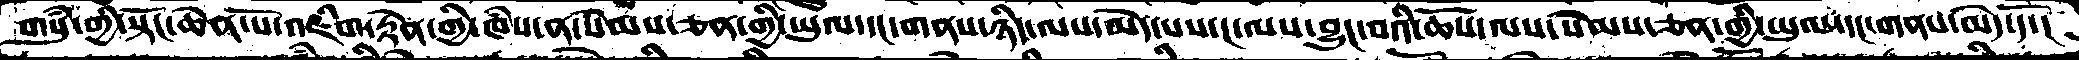གསུཾ་གྱི་སྟོང་ཆེན་པོ་འཇིག་རྟེན་གྱི་ཁཾས་ན་སེམས་ཅན་གྱི་ཡུལ་དང་གནས་ཉིད་ལས་མེད་པས་ང་ལས་བྱུང་བའི་ཆོས་ལས་སེམས་ཅན་གྱི་ཡུལ་དང་གནས་མེད་དོ་།
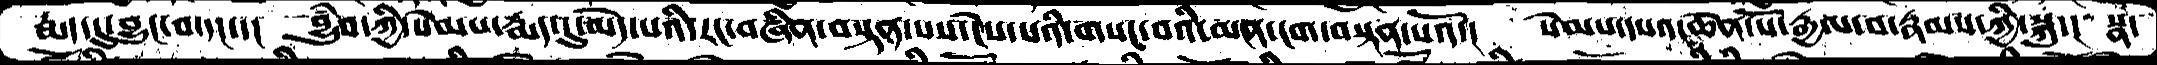རྨད་དུ་བྱུང་བ་དང་།  བྱུཾབ་ཀྱི་སེམས་རྨད་དུ་མེད་པའི་རང་བཞིན་བསྟན་པས་ངེས་པའི་གསང་བའི་མན་ངག་བསྟན་པའོ་།  སེམས་དཔའ་ཆེན་པོ་རྒྱལ་བ་རྣམས་ཀྱི་སྐུ་།  སྣ་
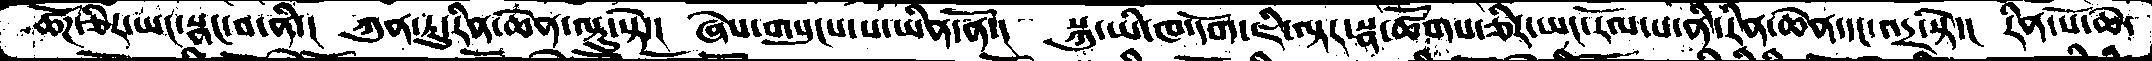ཚོཌ་ཅིར་ཡང་སྣང་བ་ནི་།  ཀུན་ཏུ་རིན་ཆེན་ལྟུ་སྟེ་།  ཞེས་གསུངས་པ་ཡིན་ནོ་།  སྐུ་ཡི་ཁ་དོག་ཇི་ལྟར་སྣ་ཚོགས་ཅིར་ཡང་རོལ་པ་ནི་རིན་ཆེན་དང་འདྲ་སྟེ་།  རིན་པོ་ཆེ་
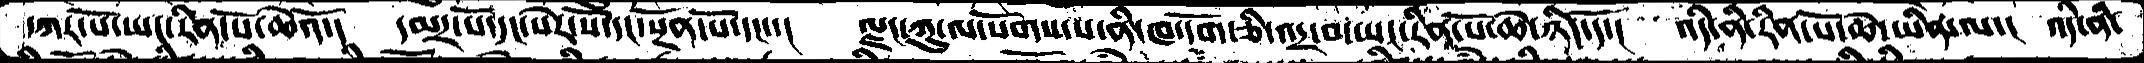དཀར་པོ་ཡང་རིན་པོ་ཆེའོ་།  དམར་པོ་དང་སེར་པོ་དང་སྔོན་པོ་དང་།  ལྗང་ཀུ་ལ་སོགས་པ་ནི་ཁ་དོག་ཅི་འདྲ་བ་ཡང་རིན་པོ་ཆེ་ཉིད་དོ་། འདི་ནི་རིན་པོ་ཆེ་ཡིན་ལ་།  འདི་ནི་
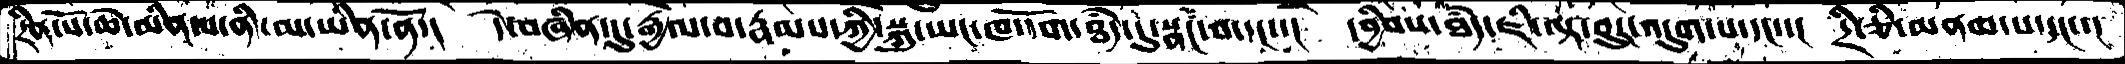རིན་པོ་ཆེ་མིན་པ་ནི་མ་ཡིན་ནོ་། དེ་བཞིན་དུ་རྒྱལ་བ་རྣམས་ཀྱི་སྐུ་ཡང་ཁ་དོག་ཐཾད་དུ་སྣང་བ་དང་་། དབྱིབས་ཐཾད་ཇི་ལྟ་བུར་འདུག་པ་དང་་། དྲི་ཅི་མནམ་པ་དང་་།
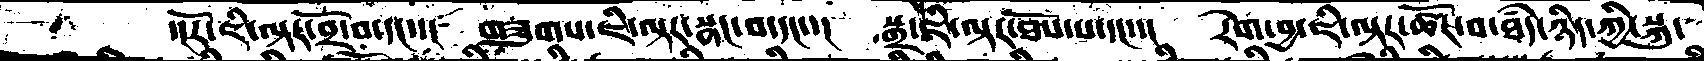་།རོ་ཇི་ལྟར་བྲོ་བ་དང་་།  གཟུགས་ཇི་ལྟར་སྣང་བ་དང་་།  སྒྲ་ཇི་ལྟར་ཐོས་པ་དང་་།  རེག་བྱ་ཇི་ལྟར་ཚོར་བ་ཐཾད་ཉིད་ཀྱིསྐུ་
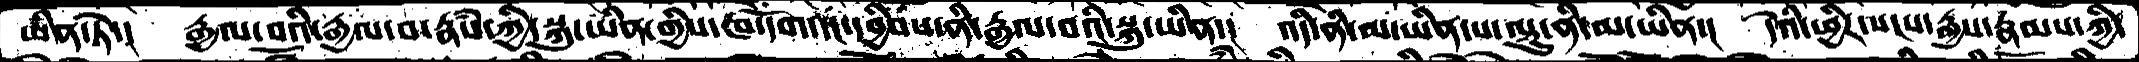ཡིན་ཏེ་།  རྒྱལ་བའི་རྒྱལ་བ་རྣཾས་ཀྱི་སྐུ་ཡིན་གྱིས་ཁ་དོག་དང་དབྱིབས་ནི་རྒྱལ་བའི་སྐུ་ཡིན་།  འདི་ནི་མ་ཡིན་པ་ལྟུ་ནི་མ་ཡིན་།  དེའི་ཕྱིར་སངས་རྒྱས་རྣམས་ཀྱི་
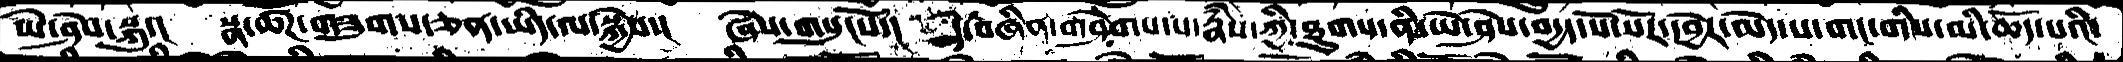ཡེ་ཤེས་སྐུ་།  སྣ་ཚོཌ་གཟུགས་ཅན་ཡིད་ལ་སྐྱེས་།  ཞེས་གསུངསོ་།  དེ་བཞིན་གཤེགས་པ་རྣཾས་ཀྱི་ཐུགས་ནི་ཡེ་ཤེས་བདྱད་སོ་སོར་དབྱེར་མེད་པ་གང་གིས་མི་ཆོད་པའི་
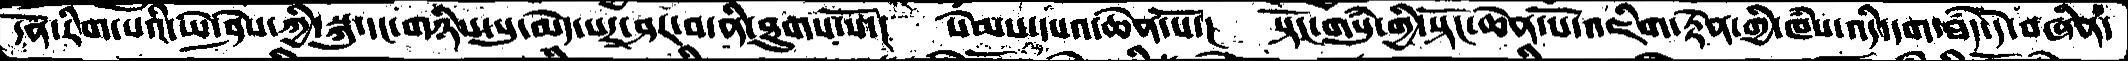དོན་རིག་པའི་ཡེ་ཤེས་ཀྱིསྐུ་དང་གཉིས་སུ་མེད་པར་ཤར་བ་ནི་ཐུགས་སོ་།  སེམས་དཔའ་ཆེན་པོ་།  སྟོང་གསུཾ་གྱི་སྟོང་ཆེན་པོ་འཇིག་རྟེན་གྱི་ཁཾས་འདི་དག་ཐཾད་དེ་བཞིན་
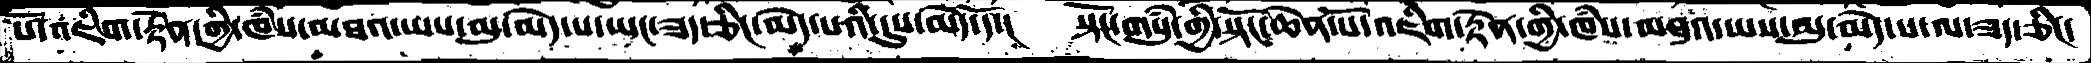པོ་འཇིག་རྟེན་གྱི་ཁཾས་མཐའ་ཡས་མུ་མེད་པ་ཡང་ཟད་ཅིང་མེད་པའི་དུས་མེད་དོ་།   སྟོང་གསུཾ་གྱི་སྟོང་ཆེན་པོ་འཇིག་རྟེན་གྱི་ཁཾས་མཐའ་ཡས་མུ་མེད་པ་ལ་ཟད་ཅིང་
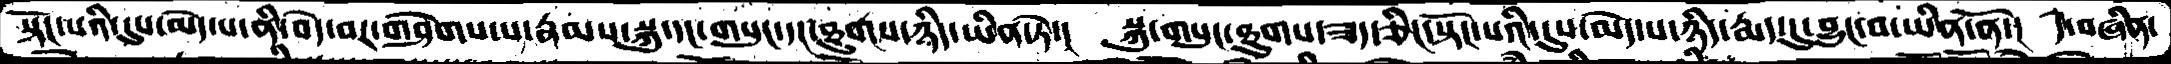སྟོང་པའི་དུས་མེད་པ་ནི་བདེ་བར་གཤེགས་པ་རྣམས་སྐུ་དང་གསུང་དང་ཐུགས་ཉིད་ཡིན་ཏེ་།།   སྐུ་གསུང་ཐུགས་ཟད་ཅིང་སྟོང་པའི་དུས་མེད་པ་ཉིད་རྨད་དུ་བྱུང་བ་ཡིན་ནོ་།  དེ་བཞིན་
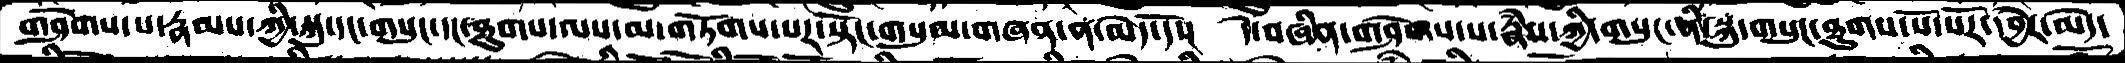གཤེགས་པ་རྣམས་ཀྱི་སྐུ་དང་གསུང་དང་ཐུགས་ལས་མ་གཏོགས་པར་སྟོང་གསུམ་གཞན་ན་མེད་དོ་།   དེ་བཞིན་གཤེགས་པ་རྣཾས་ཀྱི་གསུང་ནི་སྐུ་གསུང་ཐུགས་སོ་སོར་དབྱེར་མེད་
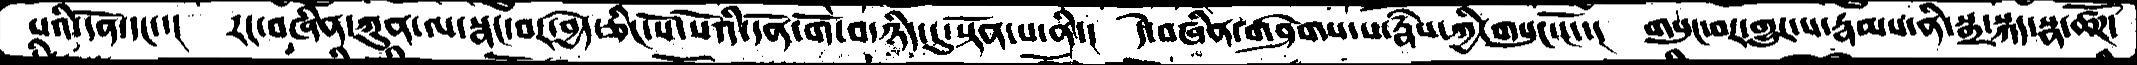པའི་དོན་དང་་།   རང་བཞིན་ཀུན་ལ་སྣང་བར་བྱེད་ཅིང་སོ་སོའི་དོན་གོ་བ་ཉིད་དུ་སྟོན་པ་ནི་།   དེ་བཞིན་གཤེགས་པ་རྣཾས་ཀྱི་གསུང་ངོ་་།   གསུང་བར་གྱུར་པ་རྣམས་ནི་སྒྲ་སྐད་སྣ་ཚོཌ་
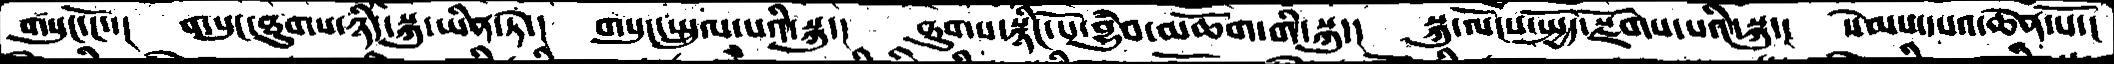གསུང་ངོ་།  གསུང་ཐུགས་ཉིད་སྐུ་ཡིན་ཏེ་།  གསུང་སྤྲུལ་པའི་སྐུ་།  ཐུགས་སྙིང་པོ་བྱུཾབ་མཆོག་གི་སྐུ་།  སྐུ་ལོངས་སྤྱོད་སྫོགས་པའི་སྐུ་།  སེམས་དཔའ་ཆེན་པོ་།
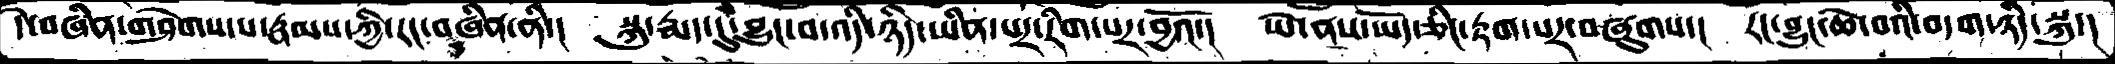དེ་བཞིན་གཤེགས་པ་རྣམས་ཀྱི་རང་བཞིན་ནི་།  སྐུ་རྨད་དུ་བྱུང་བ་འདི་ཉིད་ཡིན་པར་རིག་པར་བྱའོ་།  ཡེ་ནས་ཡོད་ཅིང་རྟག་པར་བཞུགས་།  རང་བྱུང་ཆེ་བའི་བདག་ཉིད་སྐུ་།
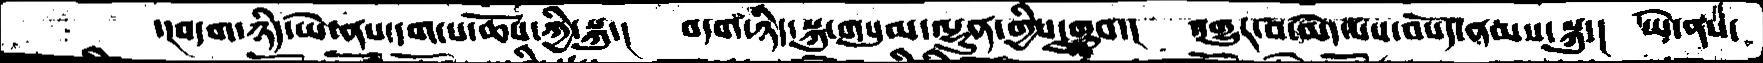་།བདག་ཉིད་ཡེ་ནས་དག་པ་ཆོས་ཀྱི་སྐུ་།  བདག་ཉིད་སྐུ་གསུམ་ལྷུན་གྱིས་གྲུབ་།  འགྱུར་བ་མེད་པས་བསོད་ནམས་སྐུ་།  ཡེ་ནས་
